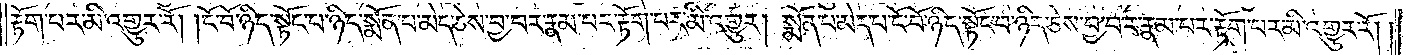རྟོག་པར་མི་འགྱུར་རོ། །ངོ་བོ་ཉིད་སྟོང་པ་ཉིད་སྨོན་པ་མེད་ཅེས་བྱ་བར་རྣམ་པར་རྟོག་པར་མི་འགྱུར། སྨོན་པ་མེད་པ་ངོ་བོ་ཉིད་སྟོང་པ་ཉིད་ཅེས་བྱ་བར་རྣམ་པར་རྟོག་པར་མི་འགྱུར་རོ། །
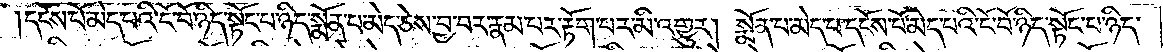དངོས་པོ་མེད་པའི་ངོ་བོ་ཉིད་སྟོང་པ་ཉིད་སྨོན་པ་མེད་ཅེས་བྱ་བར་རྣམ་པར་རྟོག་པར་མི་འགྱུར། སྨོན་པ་མེད་པ་དངོས་པོ་མེད་པའི་ངོ་བོ་ཉིད་སྟོང་པ་ཉིད་
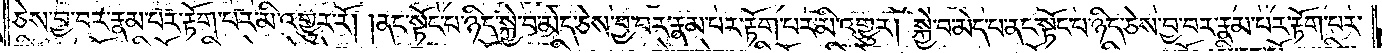ཅེས་བྱ་བར་རྣམ་པར་རྟོག་པར་མི་འགྱུར་རོ། །ནང་སྟོང་པ་ཉིད་སྐྱེ་བ་མེད་ཅེས་བྱ་བར་རྣམ་པར་རྟོག་པར་མི་འགྱུར། སྐྱེ་བ་མེད་པ་ནང་སྟོང་པ་ཉིད་ཅེས་བྱ་བར་རྣམ་པར་རྟོག་པར་
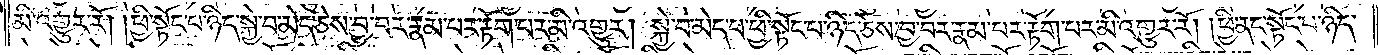མི་འགྱུར་རོ། །ཕྱི་སྟོང་པ་ཉིད་སྐྱེ་བ་མེད་ཅེས་བྱ་བར་རྣམ་པར་རྟོག་པར་མི་འགྱུར། སྐྱེ་བ་མེད་པ་ཕྱི་སྟོང་བ་ཉིད་ཅེས་བྱ་བར་རྣམ་པར་རྟོག་པར་མི་འགྱུར་རོ། །ཕྱི་ནང་སྟོང་པ་ཉིད་
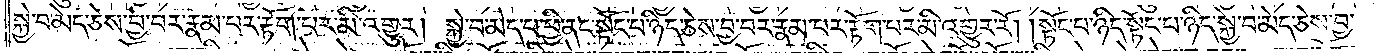སྐྱེ་བ་མེད་ཅེས་བྱ་བར་རྣམ་པར་རྟོག་པར་མི་འགྱུར། སྐྱེ་བ་མེད་པ་ཕྱི་ནང་སྟོང་པ་ཉིད་ཅེས་བྱ་བར་རྣམ་པར་རྟོག་པར་མི་འགྱུར་རོ། །སྟོང་པ་ཉིད་སྟོང་པ་ཉིད་སྐྱེ་བ་མེད་ཅེས་བྱ་
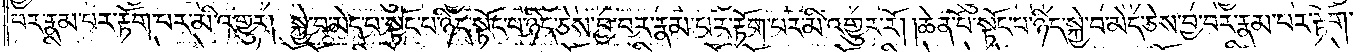བར་རྣམ་པར་རྟོག་པར་མི་འགྱུར། སྐྱེ་བ་མེད་པ་སྟོང་པ་ཉིད་སྟོང་པ་ཉིད་ཅེས་བྱ་བར་རྣམ་པར་རྟོག་པར་མི་འགྱུར་རོ། །ཆེན་པོ་སྟོང་པ་ཉིད་སྐྱེ་བ་མེད་ཅེས་བྱ་བར་རྣམ་པར་རྟོག་
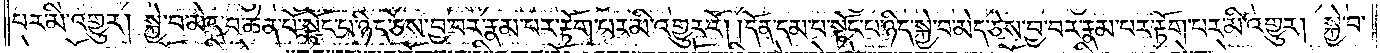པར་མི་འགྱུར། སྐྱེ་བ་མེད་པ་ཆེན་པོ་སྟོང་པ་ཉིད་ཅེས་བྱ་བར་རྣམ་པར་རྟོག་པར་མི་འགྱུར་རོ། །དོན་དམ་པ་སྟོང་པ་ཉིད་སྐྱེ་བ་མེད་ཅེས་བྱ་བར་རྣམ་པར་རྟོག་པར་མི་འགྱུར། སྐྱེ་བ་
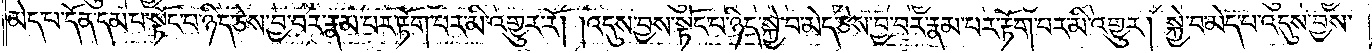མེད་པ་དོན་དམ་པ་སྟོང་པ་ཉིད་ཅེས་བྱ་བར་རྣམ་པར་རྟོག་པར་མི་འགྱུར་རོ། །འདུས་བྱས་སྟོང་པ་ཉིད་སྐྱེ་བ་མེད་ཅེས་བྱ་བར་རྣམ་པར་རྟོག་པར་མི་འགྱུར། སྐྱེ་བ་མེད་པ་འདུས་བྱས་
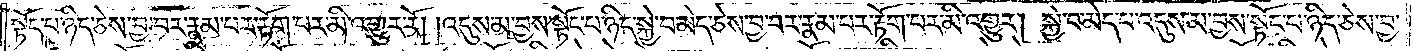སྟོང་པ་ཉིད་ཅེས་བྱ་བར་རྣམ་པར་རྟོག་པར་མི་འགྱུར་རོ། །འདུས་མ་བྱས་སྟོང་པ་ཉིད་སྐྱེ་བ་མེད་ཅེས་བྱ་བར་རྣམ་པར་རྟོག་པར་མི་འགྱུར། སྐྱེ་བ་མེད་པ་འདུས་མ་བྱས་སྟོང་པ་ཉིད་ཅེས་བྱ་
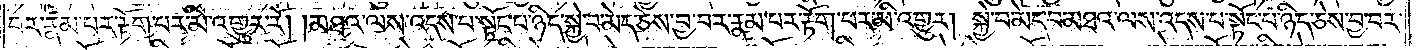བར་རྣམ་པར་རྟོག་པར་མི་འགྱུར་རོ། །མཐའ་ལས་འདས་པ་སྟོང་པ་ཉིད་སྐྱེ་བ་མེད་ཅེས་བྱ་བར་རྣམ་པར་རྟོག་པར་མི་འགྱུར། སྐྱེ་བ་མེད་པ་མཐའ་ལས་འདས་པ་སྟོང་པ་ཉིད་ཅེས་བྱ་བར་
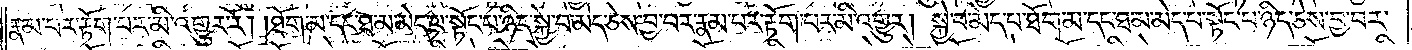རྣམ་པར་རྟོག་པར་མི་འགྱུར་རོ། །ཐོག་མ་དང་ཐ་མ་མེད་པ་སྟོང་པ་ཉིད་སྐྱེ་བ་མེད་ཅེས་བྱ་བར་རྣམ་པར་རྟོག་པར་མི་འགྱུར། སྐྱེ་བ་མེད་པ་ཐོག་མ་དང་ཐ་མ་མེད་པ་སྟོང་པ་ཉིད་ཅེས་བྱ་བར་
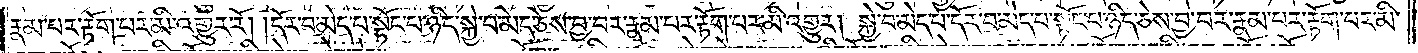རྣམ་པར་རྟོག་པར་མི་འགྱུར་རོ། །དོར་བ་མེད་པ་སྟོང་པ་ཉིད་སྐྱེ་བ་མེད་ཅེས་བྱ་བར་རྣམ་པར་རྟོག་པར་མི་འགྱུར། སྐྱེ་བ་མེད་པ་དོར་བ་མེད་པ་སྟོང་པ་ཉིད་ཅེས་བྱ་བར་རྣམ་པར་རྟོག་པར་མི་
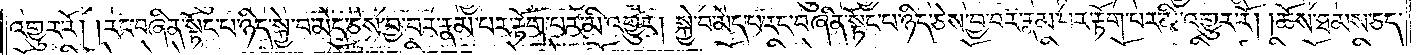འགྱུར་རོ། །རང་བཞིན་སྟོང་པ་ཉིད་སྐྱེ་བ་མེད་ཅེས་བྱ་བར་རྣམ་པར་རྟོག་པར་མི་འགྱུར། སྐྱེ་བ་མེད་པ་རང་བཞིན་སྟོང་པ་ཉིད་ཅེས་བྱ་བར་རྣམ་པར་རྟོག་པར་མི་འགྱུར་རོ། །ཆོས་ཐམས་ཅད་
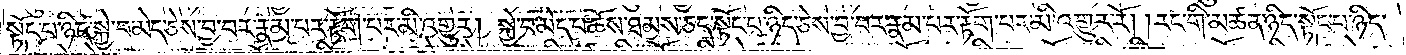སྟོང་པ་ཉིད་སྐྱེ་བ་མེད་ཅེས་བྱ་བར་རྣམ་པར་རྟོག་པར་མི་འགྱུར། །སྐྱེ་བ་མེད་པ་ཆོས་ཐམས་ཅད་སྟོང་པ་ཉིད་ཅེས་བྱ་བར་རྣམ་པར་རྟོག་པར་མི་འགྱུར་རོ། །རང་གི་མཚན་ཉིད་སྟོང་པ་ཉིད་
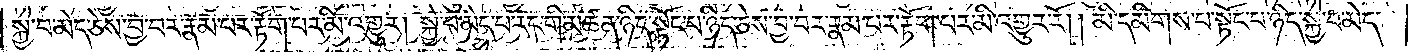སྐྱེ་བ་མེད་ཅེས་བྱ་བར་རྣམ་པར་རྟོག་པར་མི་འགྱུར། སྐྱེ་བ་མེད་པ་རང་གི་མཚན་ཉིད་སྟོང་པ་ཉིད་ཅེས་བྱ་བར་རྣམ་པར་རྟོག་པར་མི་འགྱུར་རོ། །མི་དམིགས་པ་སྟོང་པ་ཉིད་སྐྱེ་བ་མེད་
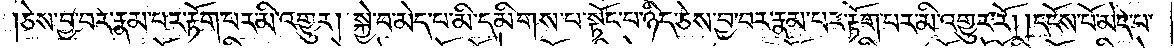ཅེས་བྱ་བར་རྣམ་པར་རྟོག་པར་མི་འགྱུར། སྐྱེ་བ་མེད་པ་མི་དམིགས་པ་སྟོང་པ་ཉིད་ཅེས་བྱ་བར་རྣམ་པར་རྟོག་པར་མི་འགྱུར་རོ། །དངོས་པོ་མེད་པ་
